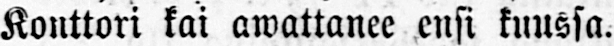Konttori kai awattanee ensi kuussa.
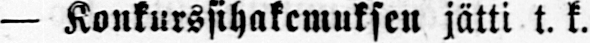— Konkurssihakemuksen jätti t. k.
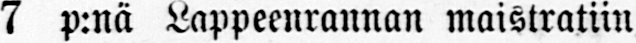7 p:nä Lappeenrannan maistratiin
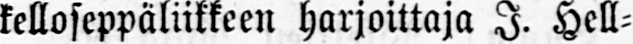kelloseppäliikkeen harjoittaja I. Hell-
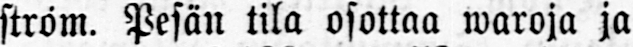ström. Pesän tila osottaa waroja ja
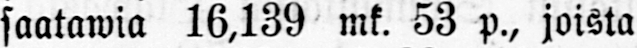saatawia 16,139 mk. 53 p., joista
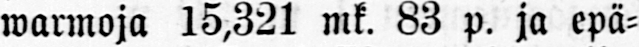warmoja 15,321 mk. 83 p. ja epä-
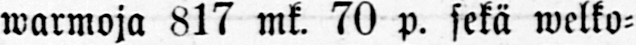warmoja 817 mk. 70 p. sekä welko-
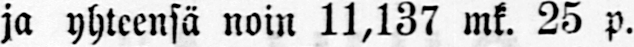ja yhteensä noin 11,137 mk. 25 p.
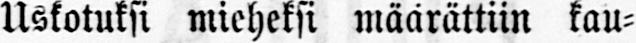Uskotuksi mieheksi määrättiin kau-
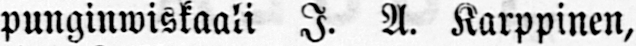punginwiskaali I. A. Karppinen,
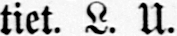tiet. L. U.
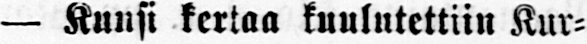— Kuusi kertaa kuulutettiin Kur-
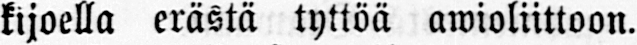kijoella erästä tyttöä awioliittoon.
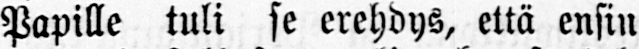Papille tuli se erehdys, että ensin
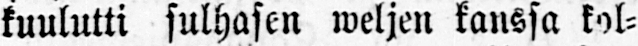kuulutti sulhasen weljen kanssa kol-
